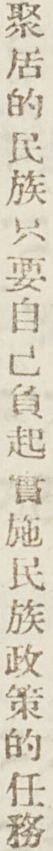聚居的民族只要自己負起實施民族政策的任務
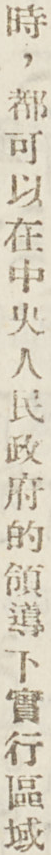時，都可以在中央人民政府的領導下實行區域
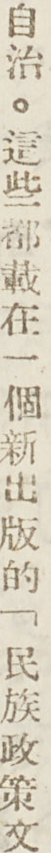自治。這些都載在一個新出版的「民族政策文
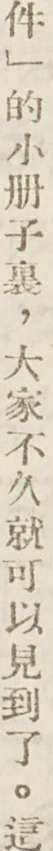件」的小冊子裏，大家不久就可以見到了。這
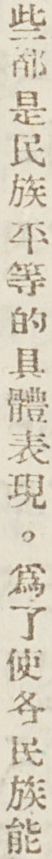些都是民族平等的具體表現。爲了使各民族能
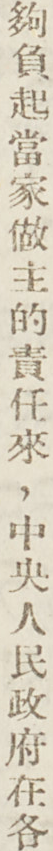夠負起當家作主的責任來，中央人民政府在各
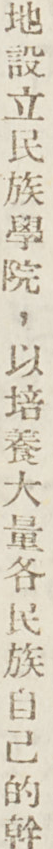地設立民族學院，以培養大量各民族自己的幹
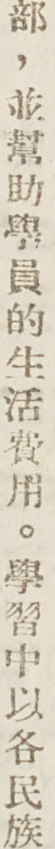部，並幫助學員的生活費用。學習中以各民族
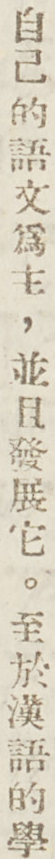自己的語文爲主，並且發展它。至於漢語的學
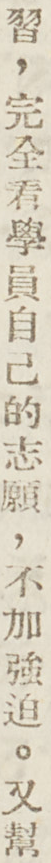習，完全看學員自己的志願，不加強迫。又幫
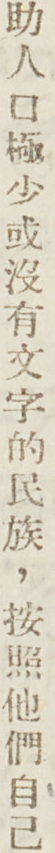助人口極少或沒有文字的民族，按照他們自己
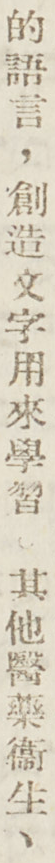的語言，創造文字用來學習。其他醫藥衛生、
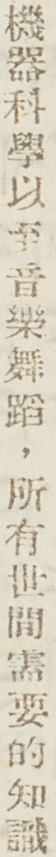機器科學以至音樂舞蹈，所有世間需要的知識
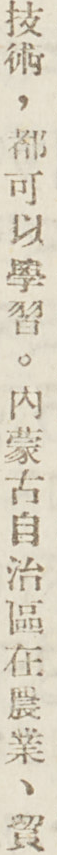技術，都可以學習。內蒙古自治區在農業、貿
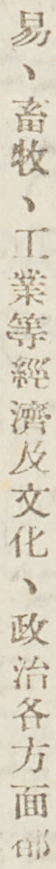易、畜牧、工業等經濟及文化、政治各方面都
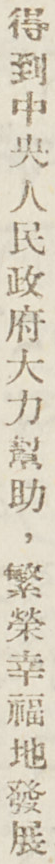得到中央人民政府大力幫助，繁榮幸福地發展
